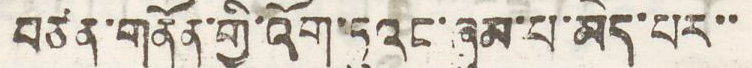བཙན་གནོན་གྱི་འོག་ཏུའང་ཞུམ་པ་མེད་པར་་
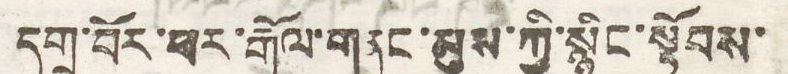དགྲ་པོར་ཕར་རྒོལ་གནང་མུས་ཀྱི་སྙིང་སྟོབས་
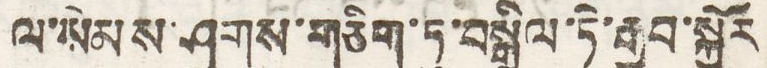ལ་སེམས་ཤུགས་གཅིག་ཏུ་བསྒྲིལ་ཏེ་རྒྱབ་སྐྱོར
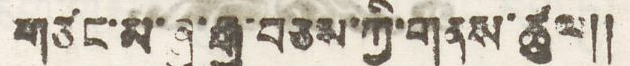གཙངས་ཞུ་རྒྱུ་བཅས་ཀྱི་གནས་ཚུལ།།
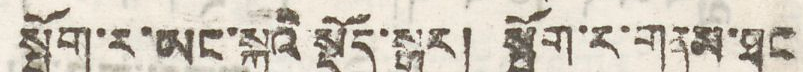སྤོག་ར་ཡང་སྐྱའི་སྡོད་སྒར། སྤོག་ར་གནས་ཐང
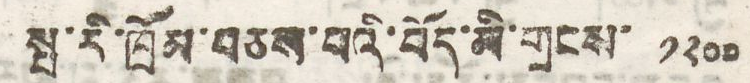སྤ་རི་ཁྲོམ་བཅས་པའི་བོད་མི་གྲངས་ ༡༢༠༠
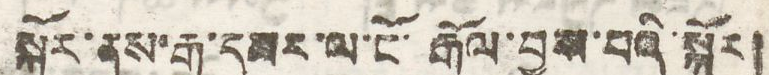སྐོར་ནས་རྒྱ་དམར་ལ་ངོ་རྒོལ་བྱས་པའི་སྐོར།
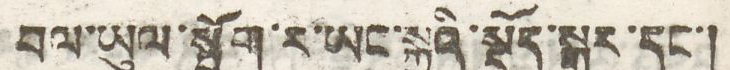བལ་ཡུལ་སྤོག་ར་ཡང་སྐྱའི་སྡོད་སྒར་དང་།
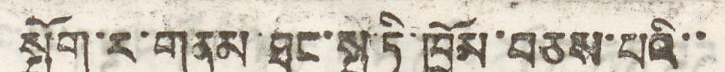སྤོག་ར་གནས་ཐང་སྦ་ཏི་ཁྲོམ་བཅས་པའི་་
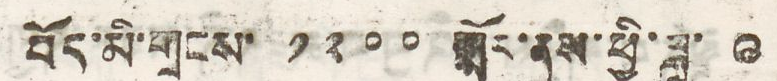བོད་མི་གྲངས་ ༡༢༠༠ སྤོར་ནས་ཕྱི་ཟླ་ ༩
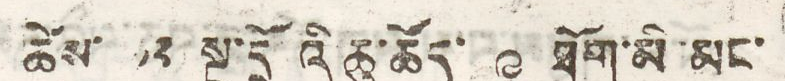ཚེ་ས་ ༡༢ སྔ་དྲོའི་ཆུ་ཚོད་ ༩ ཐོག་མི་མང་
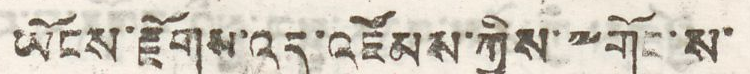ཡོངས་རྫོགས་འདུ་འཛོམས་ཀྱིས་༸གོང་ས་
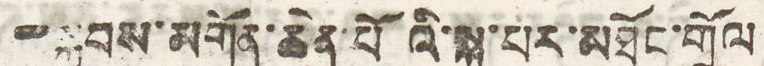༸སྐྱབས་མགོན་ཆེན་པོའི་སྐུ་པར་མཐོང་གྲོལ
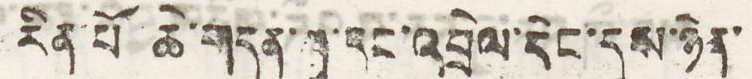རིན་པོ་ཆེ་གདན་ཞུ་དང་འབྲེལ་དེང་དུས་ཉེན་
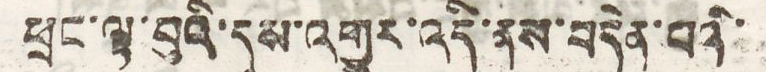ཕྲང་ལྟ་བུའི་དུས་འགྱུར་འདི་ནས་བདེན་བའི་
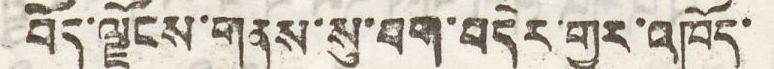བོད་ལྗོངས་གནས་སུ་བག་བདེར་གྱུར་འཁོད་
